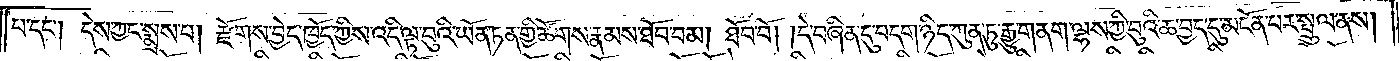པ་དང༌། དེས་ཀྱང་སྨྲས་པ། རྫོགས་བྱེད་ཁྱོད་ཀྱིས་འདི་ལྟ་བུའི་ཡོན་ཏན་གྱི་ཚོགས་རྣམས་ཐོབ་བམ། ཐོབ་བོ། །དེ་བཞིན་དུ་བདག་ཉིད་ཀུན་ཏུ་རྒྱུ་གནག་ལྷས་ཀྱི་བུའི་ཆ་བྱད་དུ་མངོན་པར་སྤྲུལ་ནས།
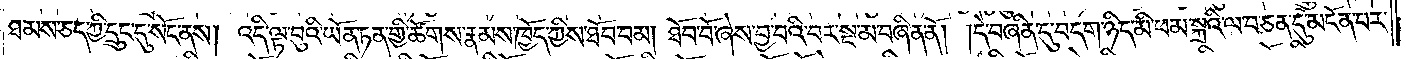ཐམས་ཅད་ཀྱི་དྲུང་དུ་སོང་ནས། འདི་ལྟ་བུའི་ཡོན་ཏན་གྱི་ཚོགས་རྣམས་ཁྱོད་ཀྱིས་ཐོབ་བམ། ཐོབ་བོ་ཞེས་བྱ་བའི་བར་སྔ་མ་བཞིན་ནོ། །དེ་བཞིན་དུ་བདག་ཉིད་མི་ཕམ་སྐྲའི་ལ་བ་ཅན་དུ་མངོན་པར་
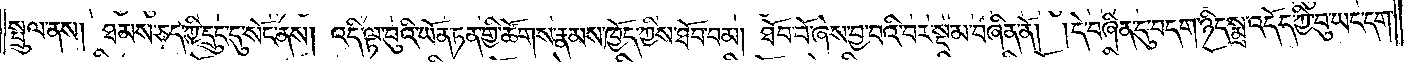སྤྲུལ་ནས། ཐམས་ཅད་ཀྱི་དྲུང་དུ་སོང་ནས། འདི་ལྟ་བུའི་ཡོན་ཏན་གྱི་ཚོགས་རྣམས་ཁྱོད་ཀྱིས་ཐོབ་བམ། ཐོབ་བོ་ཞེས་བྱ་བའི་བར་སྔ་མ་བཞིན་ནོ། །དེ་བཞིན་དུ་བདག་ཉིད་སྨྲ་འདོད་ཀྱི་བུ་ཡང་དག་
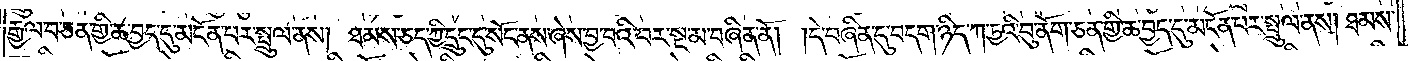རྒྱལ་བ་ཅན་གྱི་ཆ་བྱད་དུ་མངོན་པར་སྤྲུལ་ནས། ཐམས་ཅད་ཀྱི་དྲུང་དུ་སོང་ནས་ཞེས་བྱ་བའི་བར་སྔ་མ་བཞིན་ནོ། །དེ་བཞིན་དུ་བདག་ཉིད་ཀ་ཏྱའི་བུ་ནོག་ཅན་གྱི་ཆ་བྱད་དུ་མངོན་པར་སྤྲུལ་ནས། ཐམས་
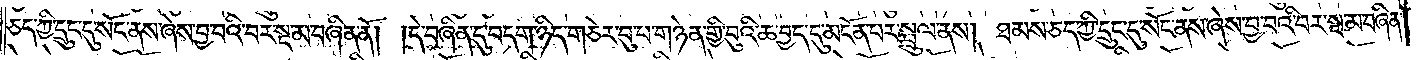ཅད་ཀྱི་དྲུང་དུ་སོང་ནས་ཞེས་བྱ་བའི་བར་སྔ་མ་བཞིན་ནོ། །དེ་བཞིན་དུ་བདག་ཉིད་གཅེར་བུ་པ་གཉེན་གྱི་བུའི་ཆ་བྱད་དུ་མངོན་པར་སྤྲུལ་ནས། ཐམས་ཅད་ཀྱི་དྲུང་དུ་སོང་ནས་ཞེས་བྱ་བའི་བར་སྔ་མ་བཞིན་
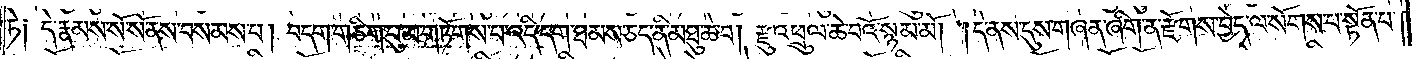ཏེ༑ དེ་རྣམས་སོ་སོ་ནས་བསམས་པ། བདག་གཅིག་པུ་མ་གཏོགས་པ་འདི་དག་ཐམས་ཅད་ནི་མཐུ་ཆེ་བ། རྫུ་འཕྲུལ་ཆེ་བའོ་སྙམ་མོ། །དེ་ནས་དུས་གཞན་ཞིག་ན་རྫོགས་བྱེད་ལ་སོགས་པ་སྟོན་པ་
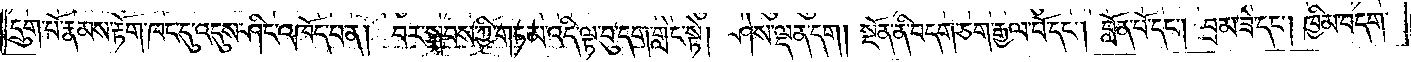དྲུག་པོ་རྣམས་རྟོག་ཁང་དུ་འདུས་ཤིང་འཁོད་པ་ན། བར་སྐབས་ཀྱི་གཏམ་འདི་ལྟ་བུ་དག་གླེང་སྟེ། ཤེས་ལྡན་དག། སྔོན་ནི་བདག་ཅག་རྒྱལ་པོ་དང༌། བློན་པོ་དང༌། བྲམ་ཟེ་དང༌། ཁྱིམ་བདག་
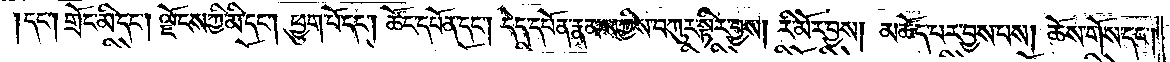དང༌། གྲོང་མི་དང༌། ལྗོངས་ཀྱི་མི་དང༌། ཕྱུག་པོ་དང༌། ཚོང་དཔོན་དང༌། དེད་དཔོན་རྣམས་ཀྱིས་བཀུར་སྟིར་བྱས། རི་མོར་བྱས། མཆོད་པར་བྱས་པས། ཆོས་གོས་དང༌།
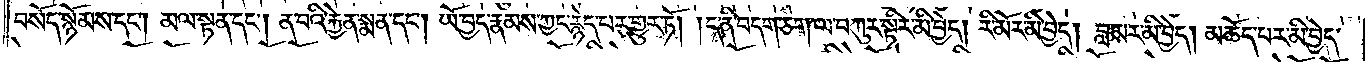བསོད་སྙོམས་དང༌། མལ་སྟན་དང༌། ན་བའི་རྐྱེན་སྨན་དང༌། ཡོ་བྱད་རྣམས་ཀྱང་རྙེད་པར་གྱུར་ཏོ། །ད་ནི་བདག་ཅག་ལ་བཀུར་སྟིར་མི་བྱེད། རི་མོར་མི་བྱེད། བླ་མར་མི་བྱེད། མཆོད་པར་མི་བྱེད་
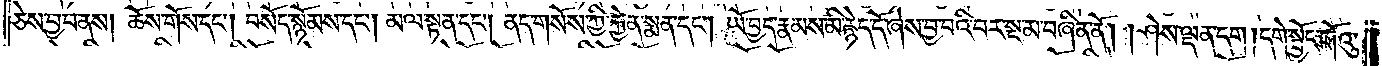ཅེས་བྱ་བ་ནས། ཆོས་གོས་དང༌། བསོད་སྙོམས་དང༌། མལ་སྟན་དང༌། ནད་གསོས་ཀྱི་རྐྱེན་སྨན་དང༌། ཡོ་བྱད་རྣམས་མི་རྙེད་དོ་ཞེས་བྱ་བའི་བར་སྔ་མ་བཞིན་ནོ། །ཤེས་ལྡན་དག །དགེ་སྦྱོང་གོའུ་
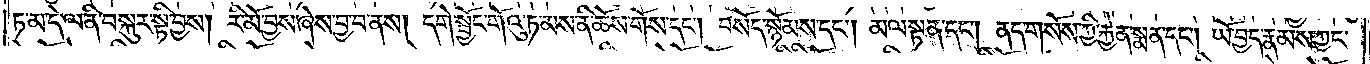ཏ་མ་དེ་ལ་ནི་བསྐུར་སྟི་བྱས། རི་མོ་བྱས་ཞེས་བྱ་བ་ནས། དགེ་སྦྱོང་གོའུ་ཏ་མས་ནི་ཆོས་གོས་དང༌། བསོད་སྙོམས་དང༌། མལ་སྟན་དང༌། ནད་གསོས་ཀྱི་རྐྱེན་སྨན་དང༌། ཡོ་བྱད་རྣམས་ཀྱང་
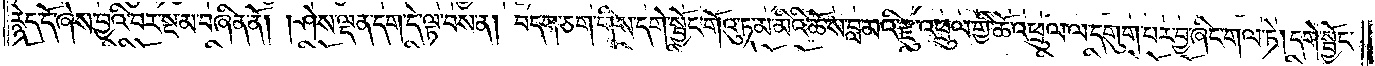རྙེད་དོ་ཞེས་བྱའི་བར་སྔ་མ་བཞིན་ནོ། །ཤེས་ལྡན་དག་དེ་ལྟ་བས་ན། བདག་ཅག་གིས་དགེ་སྦྱོང་གོའུ་ཏ་མ་མིའི་ཆོས་བླ་མའི་རྫུ་འཕྲུལ་གྱི་ཆོ་འཕྲུལ་ལ་དགུག་པར་བྱ་ཞིང་གལ་ཏེ། དགེ་སྦྱོང་
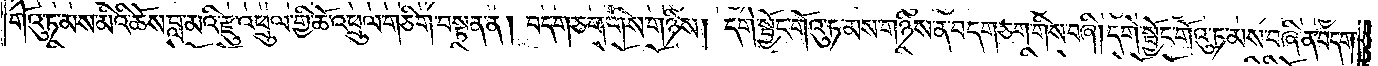གོའུ་ཏ་མས་མིའི་ཆོས་བླ་མའི་རྫུ་འཕྲུལ་གྱི་ཆོ་འཕྲུལ་གཅིག་བསྟན་ན། བདག་ཅག་གིས་གཉིས། དགེ་སྦྱོང་གོའུ་ཏ་མས་གཉིས་ན་བདག་ཅག་གིས་བཞི། དགེ་སྦྱོང་གོའུ་ཏ་མས་བཞིན་བདག་
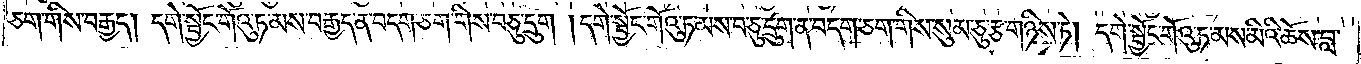ཅག་གིས་བརྒྱད༑ དགེ་སྦྱོང་གོའུ་ཏ་མས་བརྒྱད་ན་བདག་ཅག་གིས་བཅུ་དྲུག །དགེ་སྦྱོང་གོའུ་ཏ་མས་བཅུ་དྲུག་ན་བདག་ཅག་གིས་སུམ་ཅུ་རྩ་གཉིས་ཏེ། དགེ་སྦྱོང་གོའུ་ཏ་མས་མིའི་ཆོས་བླ་
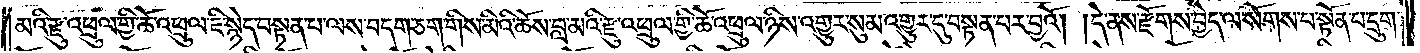མའི་རྫུ་འཕྲུལ་གྱི་ཆོ་འཕྲུལ་ཇི་སྙེད་བསྟན་པ་ལས་བདག་ཅག་གིས་མིའི་ཆོས་བླ་མའི་རྫུ་འཕྲུལ་གྱི་ཆོ་འཕྲུལ་ཉིས་འགྱུར་སུམ་འགྱུར་དུ་བསྟན་པར་བྱའོ། །དེ་ནས་རྫོགས་བྱེད་ལ་སོགས་པ་སྟོན་པ་དྲུག་
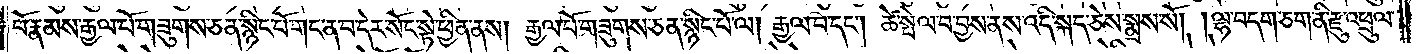པོ་རྣམས་རྒྱལ་པོ་གཟུགས་ཅན་སྙིང་པོ་གང་ན་བ་དེར་སོང་སྟེ་ཕྱིན་ནས། རྒྱལ་པོ་གཟུགས་ཅན་སྙིང་པོ་ལ། རྒྱལ་བ་དང༌། ཚེ་སྤེལ་བ་བྱས་ནས་འདི་སྐད་ཅེས་སྨྲས་སོ། །ལྷ་བདག་ཅག་ནི་རྫུ་འཕྲུལ་
